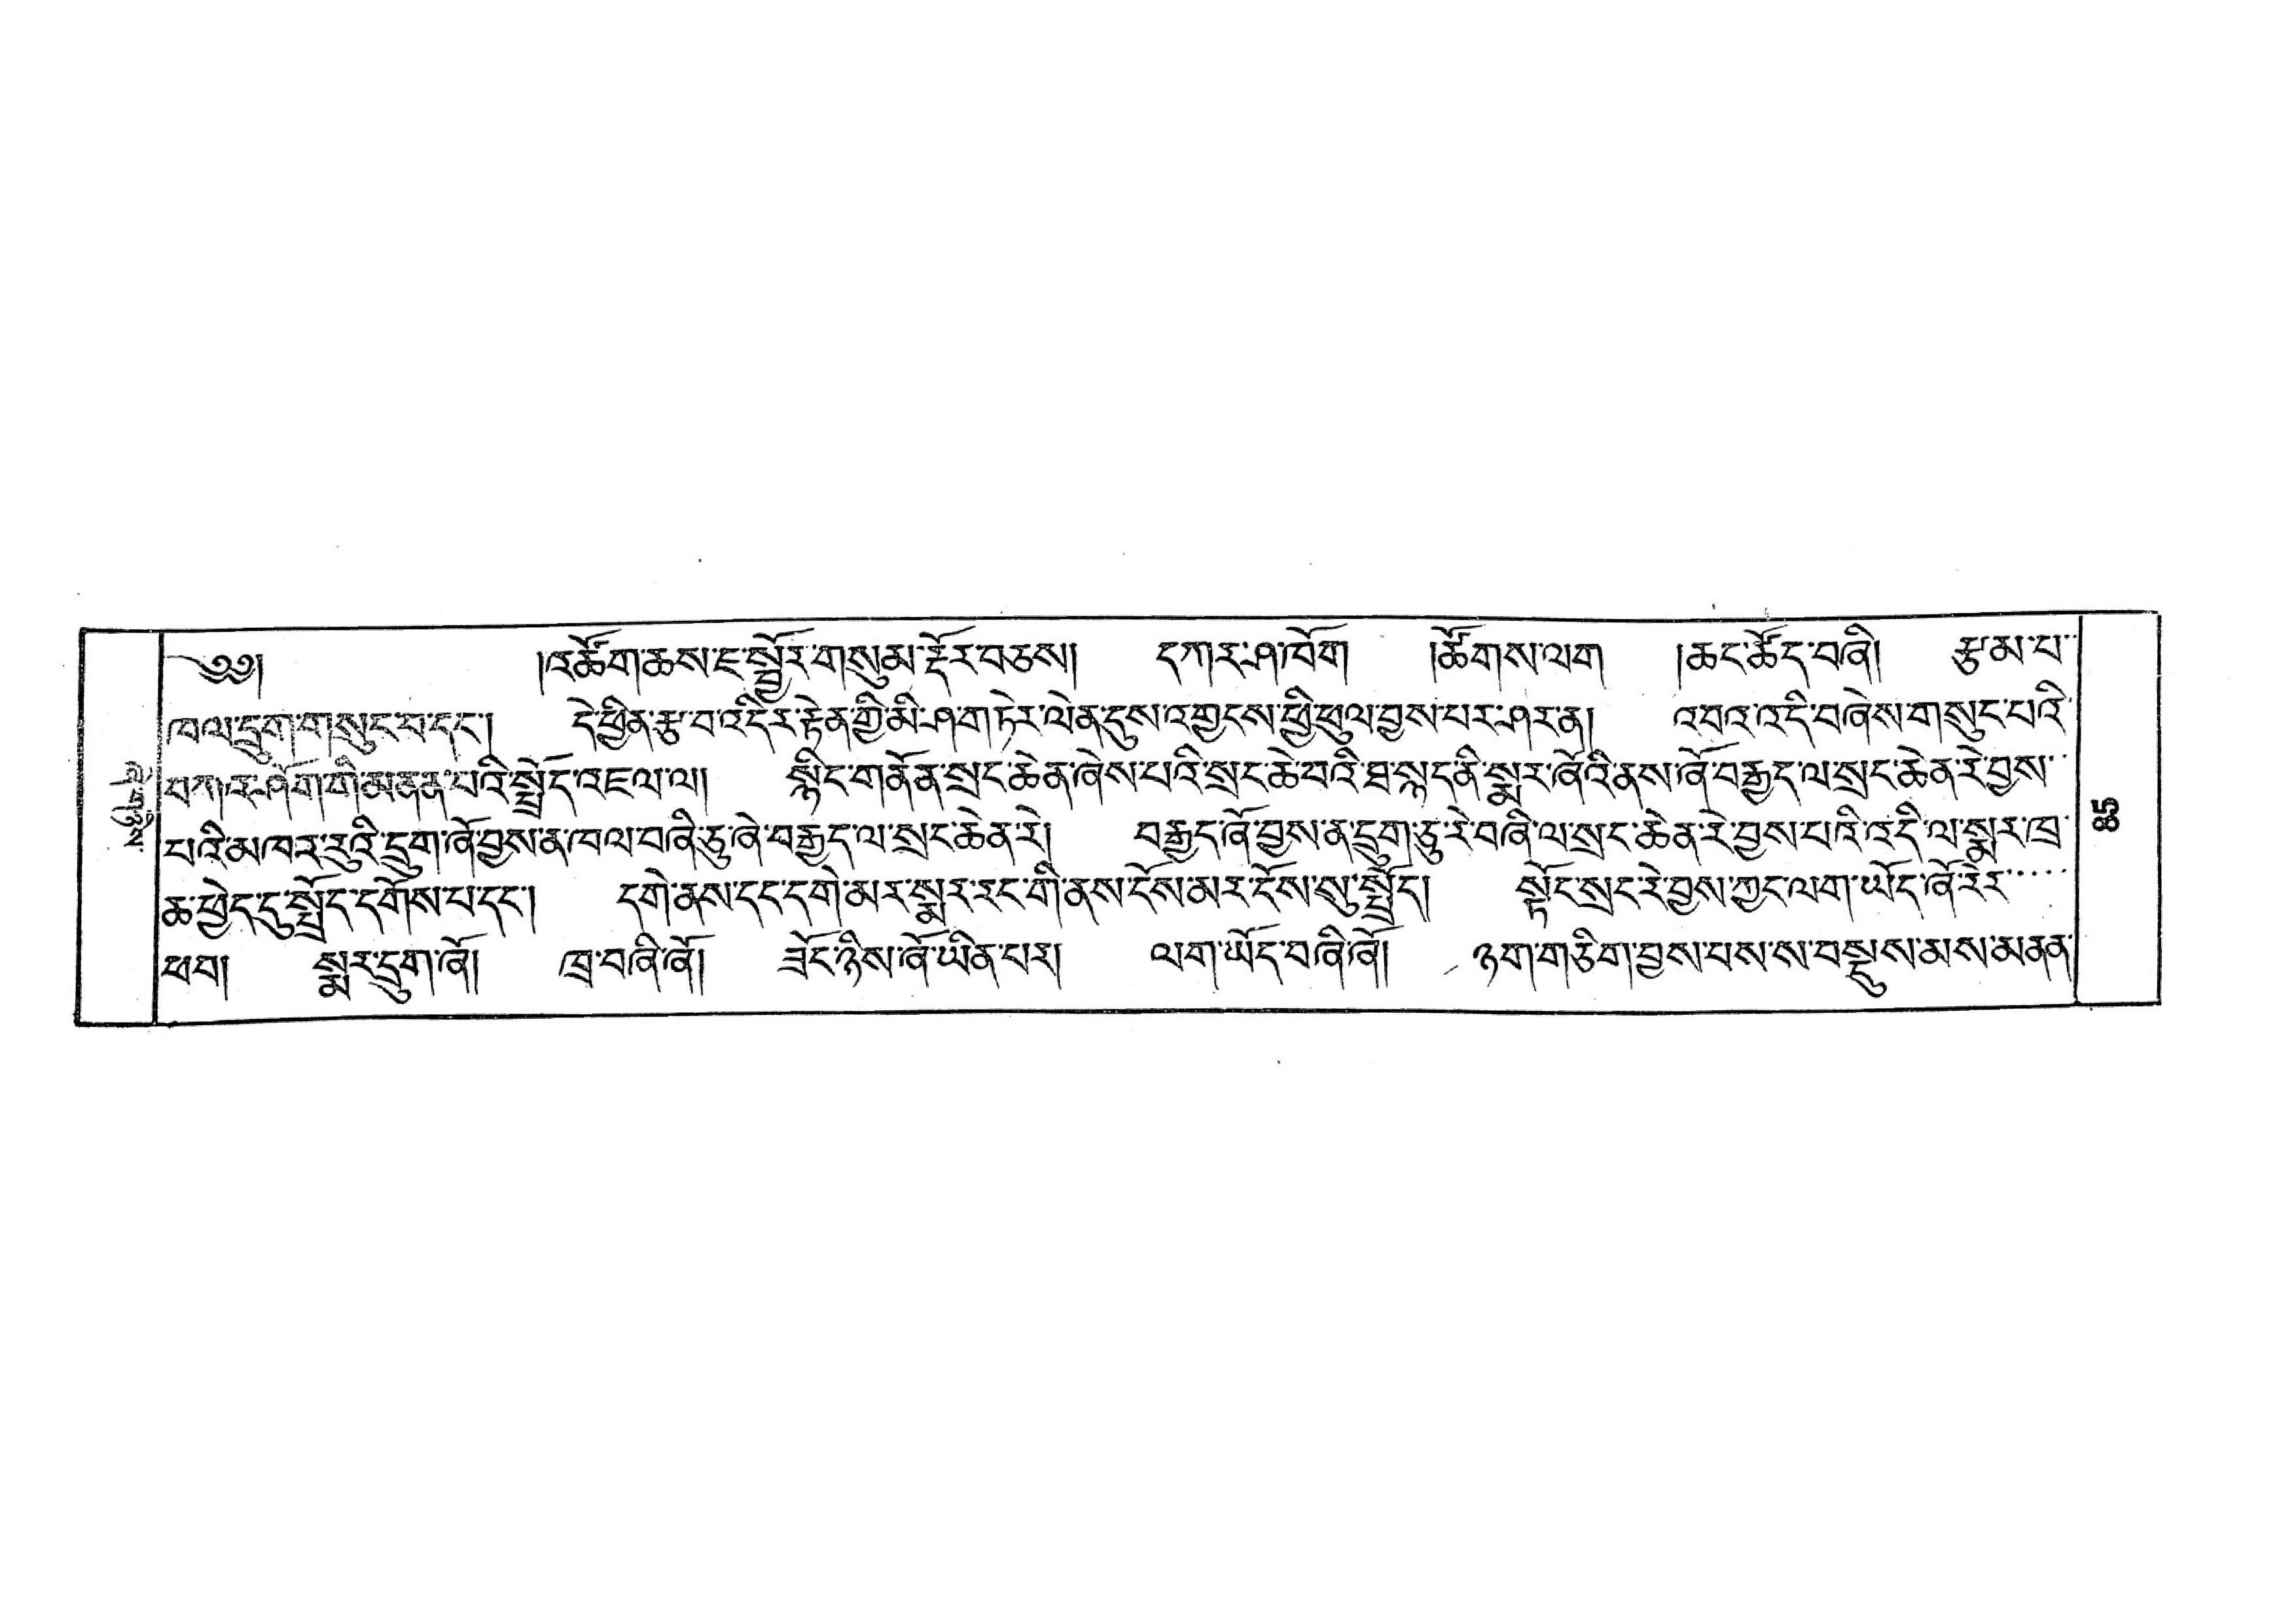ཞེ་གཉིས་
༄༅།  །འཚོག་ཆས་ཇ་སྦྱོར་གསུམ་རྡོར་བཅས། དཀར་ཤ་ཁོག །ཚོགས་ལག །ཆང་ཚོད་བཞི། རྩམ་པ་་
ཁལ་དྲུག་གསུང་བ་དང་། དེ་ཕྱིན་རྩ་བ་འདིར་རྟེན་གྱི་མི་ཤ་གཏེར་ལེན་དུས་འགྱངས་ཕྱི་ཕུལ་བྱས་པར་ཤར་ན། འབའ་འདི་བཞེས་གསུང་པའི་
བཀའ་ཤོག་གི་མནན་པའི་སྤྲོད་འཇལ་ལ། སྙིང་གནོན་སྲང་ཆེན་ཞེས་པའི་སྲང་ཆེ་བའི་ཐ་སྙད་ནི་སྨར་ཞོའི་ནས་ཞོ་བརྒྱད་ལ་སྲང་ཆེན་རེ་བྱས་་
པའི་མཁར་རུའི་དྲུག་ཞོ་བྱས་ན་ཁལ་བཞི་ཅུ་ཞེ་བརྒྱད་ལ་སྲང་ཆེན་རེ། བརྒྱད་ཞོ་བྱས་ན་དྲུག་ཅུ་རེ་བཞི་ལ་སྲང་ཆེན་རེ་བྱས་པའི་འདི་ལ་སྨར་ཁྲ་
ཆ་ཕྱེད་དུ་སྤྲོད་དགོས་པ་དང་། དགེ་ནས་དང་དགེ་མར་སྨར་རང་གི་ནས་ངོས་མར་ངོས་སུ་སྤྱོད། སྟོང་སྲང་རེ་བྱས་ཀྱང་ལག་ཡོད་ཞོ་རེར་་་་
ཕབ། སྨར་དྲུག་ཞོ། ཁྲ་བཞི་ཞོ། ཟོང་ཉིས་ཞོ་ཡིན་པར། ལག་ཡོད་བཞི་ཞོ། ཉག་གཅིག་བྱས་པས་ས་བསྡུས་མས་མནན་
